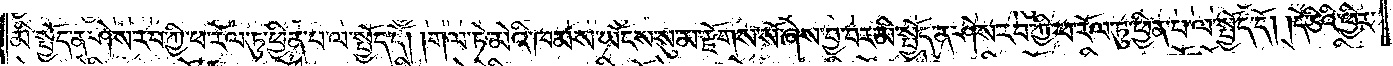མི་སྤྱོད་ན་ཤེས་རབ་ཀྱི་ཕ་རོལ་ཏུ་ཕྱིན་པ་ལ་སྤྱོད་དོ། །གལ་ཏེ་མེའི་ཁམས་ཡོངས་སུ་མ་རྫོགས་སོ་ཞེས་བྱ་བར་མི་སྤྱོད་ན་ཤེས་རབ་ཀྱི་ཕ་རོལ་ཏུ་ཕྱིན་པ་ལ་སྤྱོད་དོ། །དེ་ཅིའི་ཕྱིར་
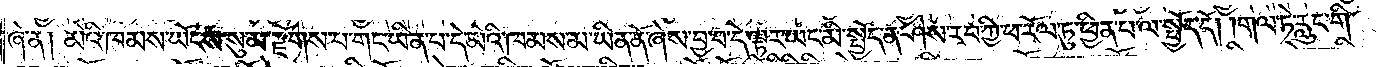ཞེ་ན། མེའི་ཁམས་ཡོངས་སུ་མ་རྫོགས་པ་གང་ཡིན་པ་དེ་མེའི་ཁམས་མ་ཡིན་ནོ་ཞེས་བྱ་བ་དེ་ལྟར་ཡང་མི་སྤྱོད་ན་ཤེས་རབ་ཀྱི་ཕ་རོལ་ཏུ་ཕྱིན་པ་ལ་སྤྱོད་དོ། །གལ་ཏེ་རླུང་གི་
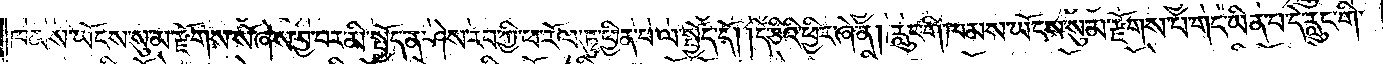ཁམས་ཡོངས་སུ་མ་རྫོགས་སོ་ཞེས་བྱ་བར་མི་སྤྱོད་ན་ཤེས་རབ་ཀྱི་ཕ་རོལ་ཏུ་ཕྱིན་པ་ལ་སྤྱོད་དོ། །དེ་ཅིའི་ཕྱིར་ཞེ་ན། རླུང་གི་ཁམས་ཡོངས་སུ་མ་རྫོགས་པ་གང་ཡིན་པ་དེ་རླུང་གི་
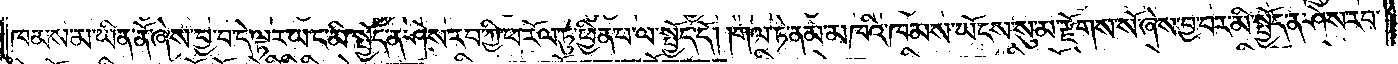ཁམས་མ་ཡིན་ནོ་ཞེས་བྱ་བ་དེ་ལྟར་ཡང་མི་སྤྱོད་ན་ཤེས་རབ་ཀྱི་ཕ་རོལ་ཏུ་ཕྱིན་པ་ལ་སྤྱོད་དོ། །གལ་ཏེ་ནམ་མཁའི་ཁམས་ཡོངས་སུ་མ་རྫོགས་སོ་ཞེས་བྱ་བར་མི་སྤྱོད་ན་ཤེས་རབ་
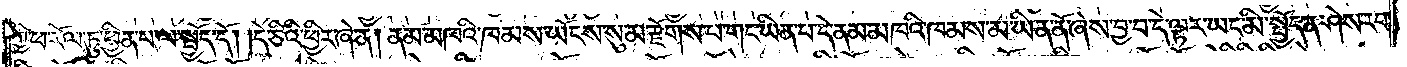ཀྱི་ཕ་རོལ་ཏུ་ཕྱིན་པ་ལ་སྤྱོད་དོ། །དེ་ཅིའི་ཕྱིར་ཞེ་ན། ནམ་མཁའི་ཁམས་ཡོངས་སུ་མ་རྫོགས་པ་གང་ཡིན་པ་དེ་ནམ་མཁའི་ཁམས་མ་ཡིན་ནོ་ཞེས་བྱ་བ་དེ་ལྟར་ཡང་མི་སྤྱོད་ན་ཤེས་རབ་
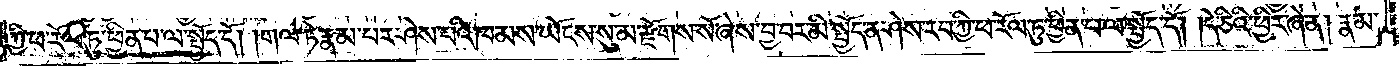ཀྱི་ཕ་རོལ་ཏུ་ཕྱིན་པ་ལ་སྤྱོད་དོ། །གལ་ཏེ་རྣམ་པར་ཤེས་པའི་ཁམས་ཡོངས་སུ་མ་རྫོགས་སོ་ཞེས་བྱ་བར་མི་སྤྱོད་ན་ཤེས་རབ་ཀྱི་ཕ་རོལ་ཏུ་ཕྱིན་པ་ལ་སྤྱོད་དོ། །དེ་ཅིའི་ཕྱིར་ཞེ་ན། རྣམ་
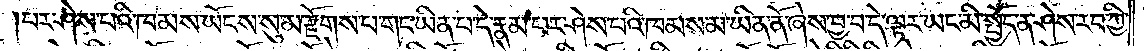པར་ཤེས་པའི་ཁམས་ཡོངས་སུ་མ་རྫོགས་པ་གང་ཡིན་པ་དེ་རྣམ་པར་ཤེས་པའི་ཁམས་མ་ཡིན་ནོ་ཞེས་བྱ་བ་དེ་ལྟར་ཡང་མི་སྤྱོད་ན་ཤེས་རབ་ཀྱི་
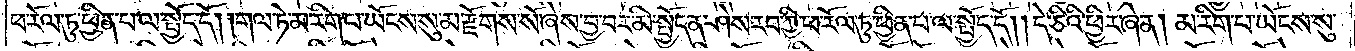ཕ་རོལ་ཏུ་ཕྱིན་པ་ལ་སྤྱོད་དོ། །གལ་ཏེ་མ་རིག་པ་ཡོངས་སུ་མ་རྫོགས་སོ་ཞེས་བྱ་བར་མི་སྤྱོད་ན་ཤེས་རབ་ཀྱི་ཕ་རོལ་ཏུ་ཕྱིན་པ་ལ་སྤྱོད་དོ། །དེ་ཅིའི་ཕྱིར་ཞེ་ན། མ་རིག་པ་ཡོངས་སུ་
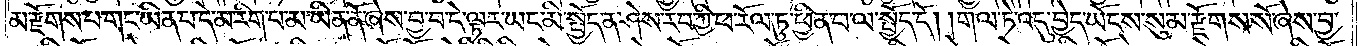མ་རྫོགས་པ་གང་ཡིན་པ་དེ་མ་རིག་པ་མ་ཡིན་ནོ་ཞེས་བྱ་བ་དེ་ལྟར་ཡང་མི་སྤྱོད་ན་ཤེས་རབ་ཀྱི་ཕ་རོལ་ཏུ་ཕྱིན་པ་ལ་སྤྱོད་དོ། །གལ་ཏེ་འདུ་བྱེད་ཡོངས་སུ་མ་རྫོགས་སོ་ཞེས་བྱ་
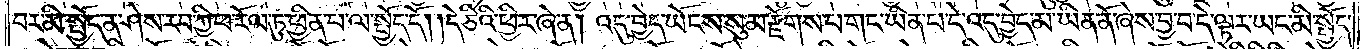བར་མི་སྤྱོད་ན་ཤེས་རབ་ཀྱི་ཕ་རོལ་ཏུ་ཕྱིན་པ་ལ་སྤྱོད་དོ། །དེ་ཅིའི་ཕྱིར་ཞེ་ན། འདུ་བྱེད་ཡོངས་སུ་མ་རྫོགས་པ་གང་ཡིན་པ་དེ་འདུ་བྱེད་མ་ཡིན་ནོ་ཞེས་བྱ་བ་དེ་ལྟར་ཡང་མི་སྤྱོད་
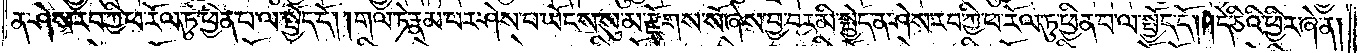ན་ཤེས་རབ་ཀྱི་ཕ་རོལ་ཏུ་ཕྱིན་པ་ལ་སྤྱོད་དོ། །གལ་ཏེ་རྣམ་པར་ཤེས་པ་ཡོངས་སུ་མ་རྫོགས་སོ་ཞེས་བྱ་བར་མི་སྤྱོད་ན་ཤེས་རབ་ཀྱི་ཕ་རོལ་ཏུ་ཕྱིན་པ་ལ་སྤྱོད་དོ། །དེ་ཅིའི་ཕྱིར་ཞེ་ན།
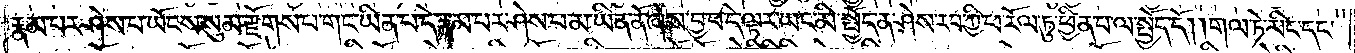རྣམ་པར་ཤེས་པ་ཡོངས་སུ་མ་རྫོགས་པ་གང་ཡིན་པ་དེ་རྣམ་པར་ཤེས་པ་མ་ཡིན་ནོ་ཞེས་བྱ་བ་དེ་ལྟར་ཡང་མི་སྤྱོད་ན་ཤེས་རབ་ཀྱི་ཕ་རོལ་ཏུ་ཕྱིན་པ་ལ་སྤྱོད་དོ། །གལ་ཏེ་མིང་དང་
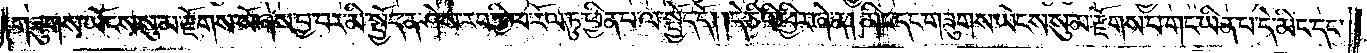གཟུགས་ཡོངས་སུ་མ་རྫོགས་སོ་ཞེས་བྱ་བར་མི་སྤྱོད་ན་ཤེས་རབ་ཀྱི་ཕ་རོལ་ཏུ་ཕྱིན་པ་ལ་སྤྱོད་དོ། །དེ་ཅིའི་ཕྱིར་ཞེ་ན། མིང་དང་གཟུགས་ཡོངས་སུ་མ་རྫོགས་པ་གང་ཡིན་པ་དེ་མིང་དང་
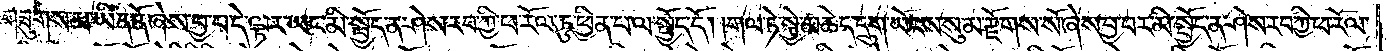གཟུགས་མ་ཡིན་ནོ་ཞེས་བྱ་བ་དེ་ལྟར་ཡང་མི་སྤྱོད་ན་ཤེས་རབ་ཀྱི་ཕ་རོལ་ཏུ་ཕྱིན་པ་ལ་སྤྱོད་དོ། །གལ་ཏེ་སྐྱེ་མཆེད་དྲུག་ཡོངས་སུ་མ་རྫོགས་སོ་ཞེས་བྱ་བར་མི་སྤྱོད་ན་ཤེས་རབ་ཀྱི་ཕ་རོལ་
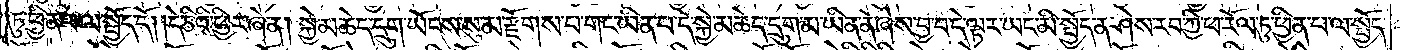ཏུ་ཕྱིན་པ་ལ་སྤྱོད་དོ། །དེ་ཅིའི་ཕྱིར་ཞེ་ན། སྐྱེ་མཆེད་དྲུག་ཡོངས་སུ་མ་རྫོགས་པ་གང་ཡིན་པ་དེ་སྐྱེ་མཆེད་དྲུག་མ་ཡིན་ནོ་ཞེས་བྱ་བ་དེ་ལྟར་ཡང་མི་སྤྱོད་ན་ཤེས་རབ་ཀྱི་ཕ་རོལ་ཏུ་ཕྱིན་པ་ལ་སྤྱོད་
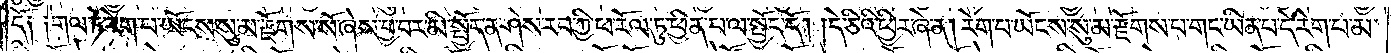དོ༑ ༑གལ་ཏེ་རེག་པ་ཡོངས་སུ་མ་རྫོགས་སོ་ཞེས་བྱ་བར་མི་སྤྱོད་ན་ཤེས་རབ་ཀྱི་ཕ་རོལ་ཏུ་ཕྱིན་པ་ལ་སྤྱོད་དོ། །དེ་ཅིའི་ཕྱིར་ཞེ་ན། རེག་པ་ཡོངས་སུ་མ་རྫོགས་པ་གང་ཡིན་པ་དེ་རེག་པ་མ་
